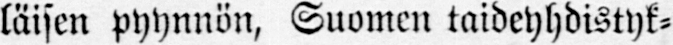läisen pyynnön, Suomen taideyhdistyk-
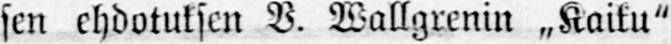sen ehdotuksen V. Wallgrenin „Kaiku"
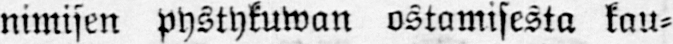niinisen pystykuwan ostamisesta kau-
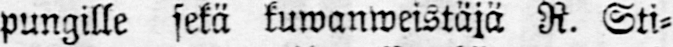pungille sekä kuwanweistäja R. Sti-
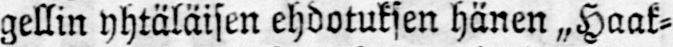gellin yhtäläisen ehdotuksen hänen „Haak-
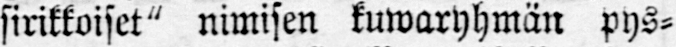sirikkoiset" nimisen kuwaryhmän pys-
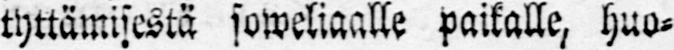tyttämisestä soweliaalle paikalle, huo-
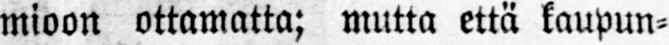mioon ottamatta; mutta että kaupun-
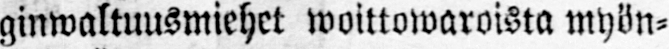ginwaltuusmiehet woittowaroista myön-
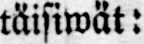täisiwät:
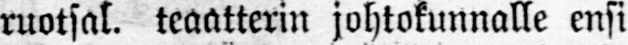ruotsal. teaatterin johtokunnalle ensi
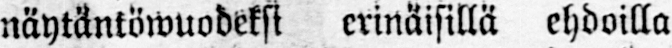näytäntöwuodeksi erinäisillä ehdoilla
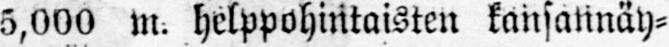5,000 m. hwlppohintaisten kansannäy-
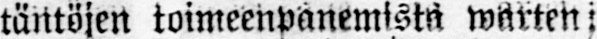täntöjen toimeenpanemista warten
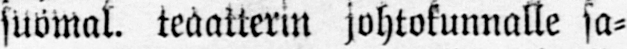suomal. teaatterin johtokunnalle sa-
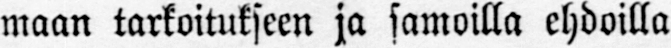maan tarkoitukseen ja samoilla ehdoilla
